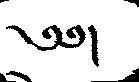༄༅།
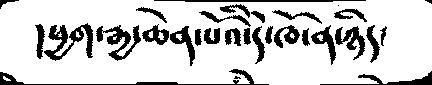།ཕྱག་རྒྱ་ཆེན་པོའི་དེ་ཁོ་ན་ཉིད་
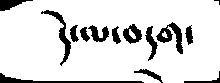དེ་ལ་བདག་
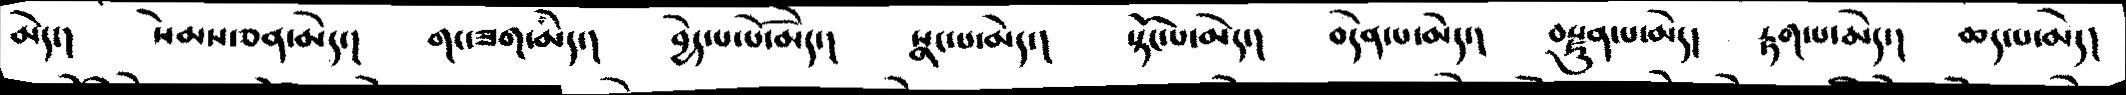མེད་།   སེམས་ཅན་མེད་།  གང་ཟག་མེད་།  བྱེད་པ་པོ་མེད་།  སྣང་པ་མེད་།  སྟོང་པ་མེད་།  བདེན་པ་མེད་།  བརྫུན་པ་མེད།  རྟག་པ་མེད་།  ཆད་པ་མེད།
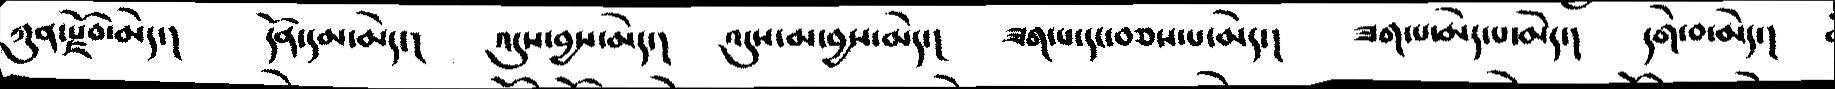ཀུན་རྫོབ་མེད་།  དོན་དམ་མེད་།  འདུས་བྱས་མེད་།  འདུས་མ་བྱས་མེད་།  ཟག་པ་དང་བཅས་པ་མེད་།  ཟག་པ་མེད་པ་མེད་།  དགེ་བ་མེད་།
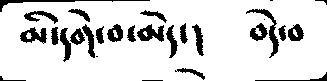མི་དགེ་བ་མེད་།    བདེ་བ
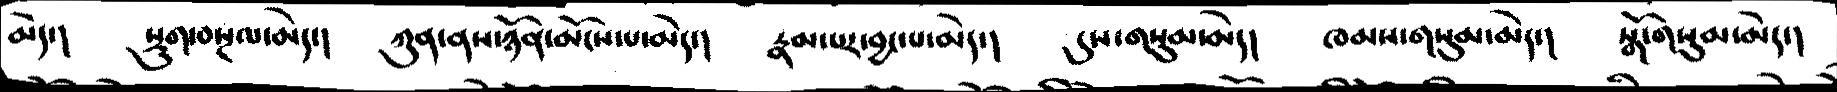མེད་།    སྡུག་བསྔལ་མེད་།   ཀུན་ནས་ཉོན་མོངས་པ་མེད་།  རྣམ་པར་བྱང་པ་མེད་།   དུས་གསུམ་མེད།  ཁམས་གསུམ་མེད་།  སྒོ་གསུམ་མེད་།
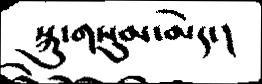སྐུ་གསུམ་མེད་།
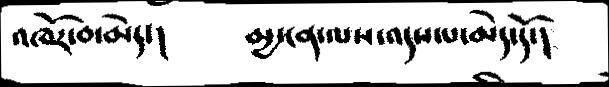འཁོར་བ་མེད་།     མྱ་ངན་ལས་འདས་པ་མེད་དོ་།
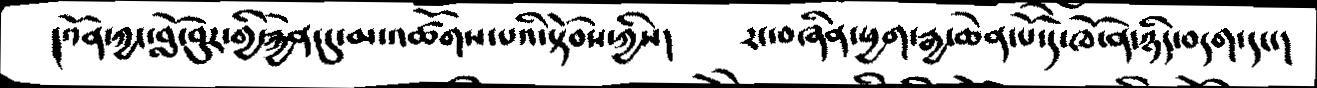།འོན་ཀྱང་བློ་བུར་གྱི་རྐྱེན་དུ་མ་འཚོགས་པའི་སྟོབས་ཀྱིས།       རང་བཞིན་ཕྱག་རྒྱ་ཆེན་པོ་དེ་ཁོ་ན་ཉིད་བདག་དང་།
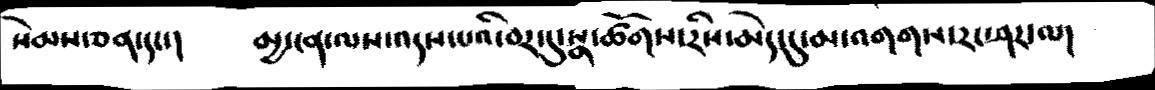སེམས་ཅན་དང་།     མྱ་ངན་ལས་འདས་པའི་བར་དུ་སྣ་ཚོགས་རིས་མེད་དུ་མ་འགགས་རང་ཤར་ལ།
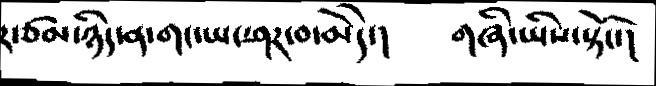ར་ཙམ་ཉིད་ན་གང་ཡང་ཤར་བ་མེདེ་།       གཞི་ཡིས་སྟོང་།
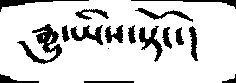རྒྱུ་ཡིས་སྟོང་།
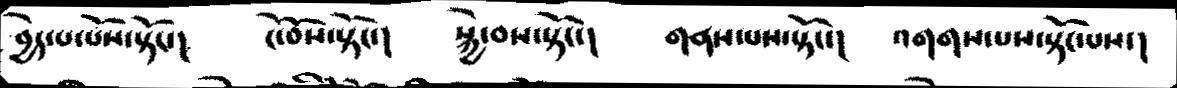བྱེད་པ་པོས་སྟོང་།     ངོ་བོས་སྟོང་།    སྐྱེ་བས་སྟོང་།   གནས་པས་སྟོང་་།   འགགས་པས་སྟོང་པས་།
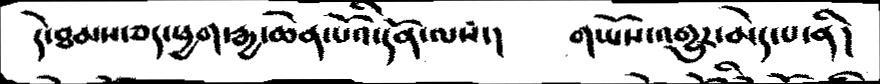དེ་ཐམས་ཅད་ཕྱག་རྒྱ་ཆེན་པོའི་དོན་ལས་།      གཡོས་འགྱུར་མེད་པ་ནི།
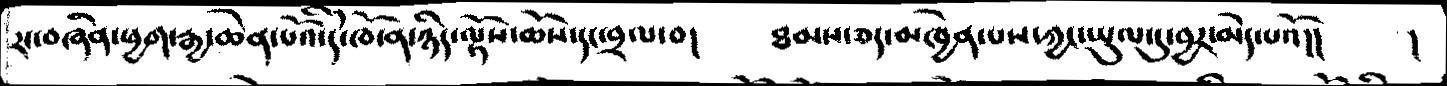རང་བཞིན་ཕྱག་རྒྱ་ཆེན་པོའི་དེ་ཁོ་ན་ཉིད་ལྟོས་ཆོས་དང་བྲལ་བ།      ཐམས་ཅད་མཁྱེན་པས་ཀྱང་ཡུལ་དུ་བྱར་མེད་པའོ།།   །
